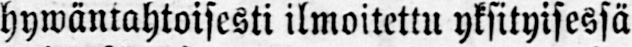hywäntahtoisesti ilmoitettu yksityisessä
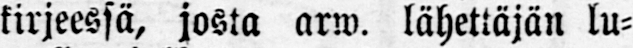kirjeessä, josta arw. lähettäjän lu-
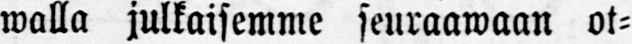walla julkaisemme seuraawaan ot-
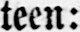teen:
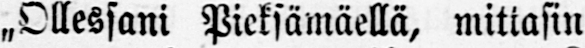„Ollessani Pieksämäellä, mittakin
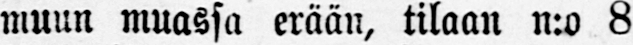muun muassa erään, tilaan n:o 8
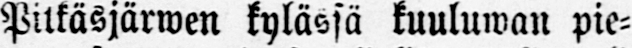Pitkäsjärwen kylässä kuuluwan pie-
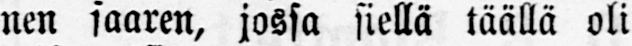nen saaren, jossa siellä täällä oli
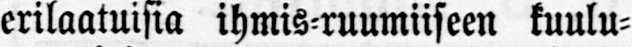erilaatuisia ihmis-ruumiiseen kuulu-
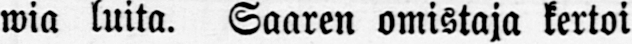wia luita. Saaren omistaja kertoi
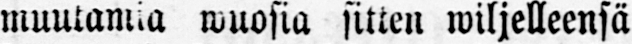muutamia wuosia sitten wiljelleensä
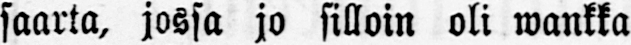saarta, jossa jo silloin oli wankka
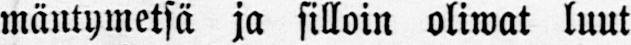mäntymetsä ja silloin oliwat luut
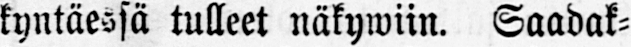kyntäessä tulleet näkywiin. Saadak-
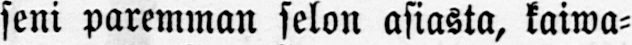seni paremman selon asiasta, kaiwa-
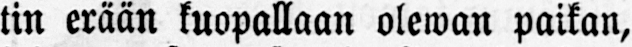tin erään kuopallaan olewan paikan,
